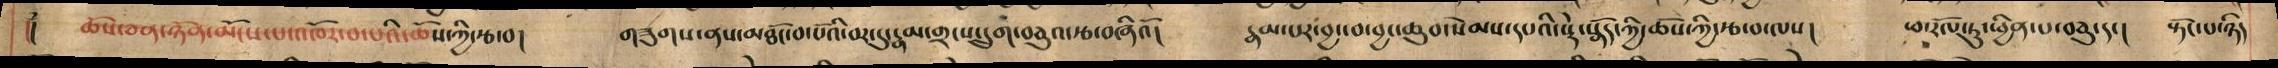།། ཆོས་ཅན་ཉོན་མོངས་པ་འཁོར་བ་པའི་ཆོས་ཀྱི་རྩ་བ། གཟུགས་ནས་མཐོང་བ་པོའི་བར་དུ་རྣམ་གྲངས་དྲུག་བཅུའ་རྩ་བཞིའོ། རྣམ་པར་བྱང་བ་བྱང་ཆུབ་སེམས་དཔའི་སྡེ་སྣོད་ཀྱི་ཆོས་ཀྱི་རྩ་བ་ལས། ཕ་རོལ་ཏུ་ཕྱིན་པ་བཅུ་དང། སྟོང་པ་ཉིད
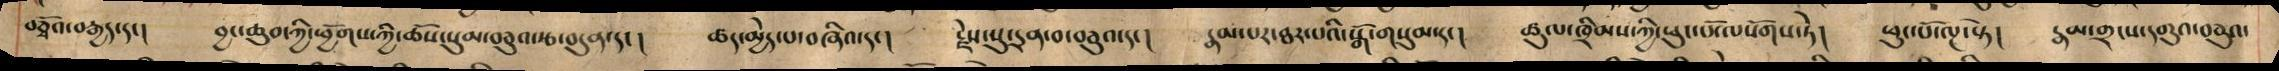བཅྭོའ་བརྒྱད་དང། བྱང་ཆུབ་ཀྱི་ཕྱོགས་ཀྱི་ཆོས་སུམ་བཅུའ་རྩ་བདུན་དང། ཚད་མྱེད་པ་བཞིའ་དང། རྗེ་སུ་དྲན་བ་ཅུའ་དང། རྣམ་པར་ཐར་པའི་སྒོ་གསུམ་དང། ཚུལ་ཁྲིམས་ཀྱི་ཕུང་པོ་ལསོགས་ཏེ། ཕུང་པོ་ལྔ་སྟེ། རྣམ་གྲངས་དགུའ་བཅུའ་
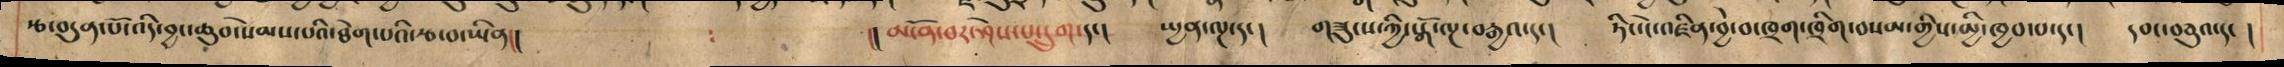རྩ་བདུན་པོ་འདི་བྱང་ཆུབ་སེམས་པའི་ཐེགས་པའི་རྩ་བ་ཡིན།། །།མངོན་པར་ཤེས་པ་དྲུག་དང། སྤྱན་ལྔ་དང། གཟུངས་ཀྱི་སྒོ་ལྔ་བརྒྱའ་དང། ཏིང་ངེ་འཛིན་བྱེ་བ་ཁྲག་ཁྲིག་བསམ་གྱིས་མྱི་ཁྱབ་པ་དང། དབང་བཅུའ་དང །
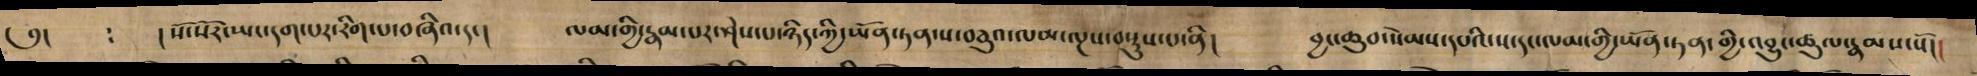༅། : ། སོ་སོར་ཡང་དག་པར་རིག་པ་བཞི་དང། ལམ་གྱི་རྣམ་པར་ཤེས་པ་ཉིད་ཀྱི་ཡོན་ཏན་ས་བཅུའ་ལམ་ལྔས་བསྡུས་པ་ནི། བྱང་ཆུབ་སེམས་དཔའི་ས་དང་ལམ་གྱི་ཡོན་ཏན་གྱི་འབྱུང་ཚུལ་རྣམས་སོ།།
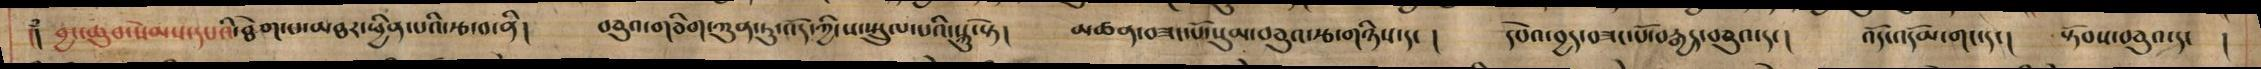།། བྱང་ཆུབ་སེམས་དཔའི་ཐེག་པ་མཐར་ཕྱིན་པའི་རྩ་བ་ནི། བཅུའ་གཅིག་ཀུན་ཏུ་འོད་ཀྱི་ས་སྤྲུལ་པའི་སྐུ་སྟེ། མཚན་བཟང་པོ་སུམ་བཅུའ་རྩ་གཉིས་དང། དཔེའ་བྱད་བཟང་པོ་བརྒྱད་བཅུའ་དང། འོད་འདོམ་གང་དང། སྟོབས་བཅུའ་དང །
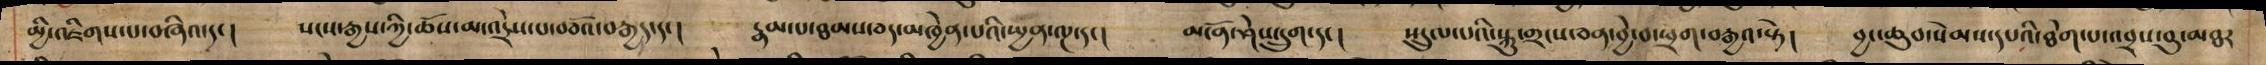མྱི་འཇིགས་པ་བཞིའ་དང། སངས་རྒྱས་ཀྱི་ཆོས་མ་འདྲེས་པ་བཅོའ་བརྒྱད་དང། རྣམ་པ་ཐམས་ཅད་མཁྱེན་པའི་སྤྱན་ལྔ་དང། མངོན་ཤེས་དྲུག་དང། སྤྲུལ་པའི་སྐུ་གྲངས་ཅན་བྱེ་བ་ཕྲག་བརྒྱའ་སྟེ། བྱང་ཆུབ་སེམས་དཔའི་ཐེག་པ་འབྲས་བུ་མཐར
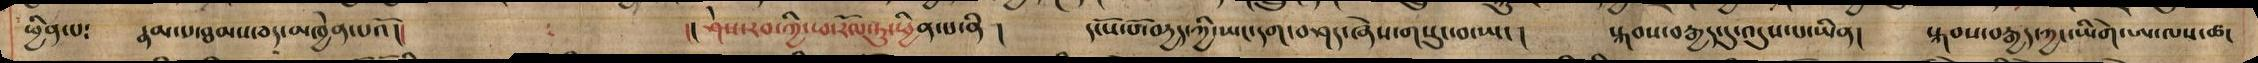ཕྱིན་པ: རྣམ་པ་ཐམས་ཅད་མཁྱེན་པའོ།། །།ཤེས་རབ་ཀྱི་ཕ་རོལ་ཏུ་ཕྱིན་པ་ནི ། དངོས་པོ་བརྱད་ཀྱི་ཡང་དག་བཤད་ཞེས་གསུང་བ་ཡང། སྐབས་བརྒྱད་དུ་འདུས་པ་ཡིན། སྐབས་བརྒྱད་ཀྱང་ཡིགེ་ཨ་ལས་ཚ་
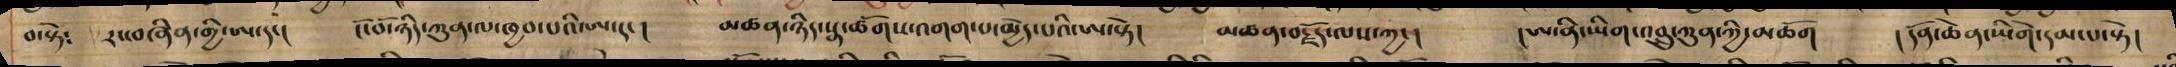བ་སྟེ: རང་བཞིན་གྱི་ཨ་དང། ངོ་བོ་ཉིད་ཀུན་ལ་ཁྱབ་པའི་ཨ་དང། མཚན་ཉིད་སྣ་ཚོགས་འགག་པ་མྱེད་པའི་ཨ་སྟེ། མཚན་བརྗོད་ལས་ཀྱང། །ཨ་ནི་ཡིག་འབྲུ་ཀུན་ཀྱི་མཆོག །དོན་ཆེན་ཡིགེ་དམ་པ་སྟེ།
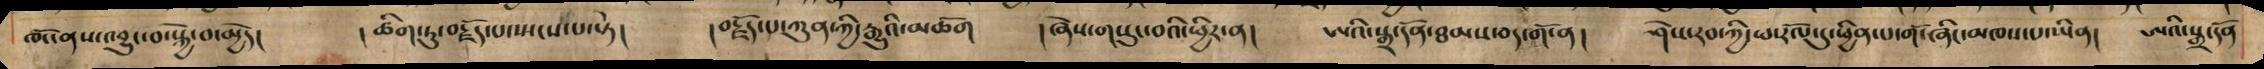ཁོང་ནས་འབྱུང་བ་སྐྱེ་བ་མྱེད། ། ཚིག་ཏུ་བརྗོད་པ་ཡངས་པ་སྟེ། །བརྗོད་པ་ཀུན་རྒྱུའི་མཆོག །ཞེས་གསུང་བའི་ཕྱིར་ན། ཨའི་སྒྲ་དོན་ཐམས་ཅད་གོ་ན། ཤེས་རབ་ཀྱི་ཕ་རོལ་དུ་ཕྱིན་པ་གོ་ཞིང་མཁས་པ་ཡིན། ཨའི་སྒྲ་དོན
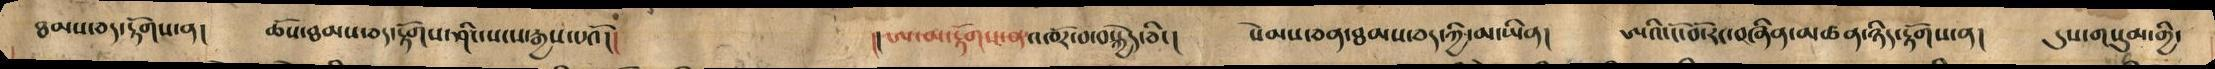ཐམས་ཅད་རྟོགས་ན། ཆོས་ཐམས་ཅད་རྟོགས་ཤིང་སངས་རྒྱས་པའོ།། །།ཨ་མ་རྟོགས་ན་འཁོར་བ་བསྐྱེད་ཅིང་། སེམས་ཅན་ཐམས་ཅད་ཀྱི་མ་ཡིན། ཨའི་ངོ་བོ་རང་བཞིན་མཚན་ཉིད་རྟོགས་ན། དུས་གསུམ་གྱི་
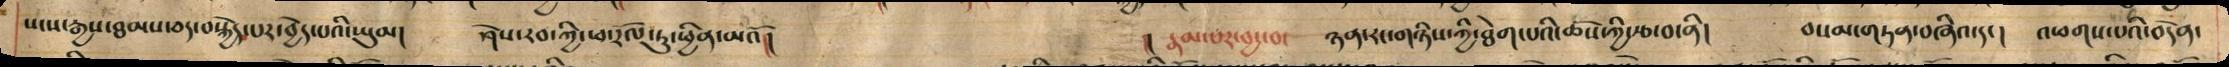སངས་རྒྱས་ཐམས་ཅད་བསྐྱེད་པར་བྱེད་པའི་ཡུམ། ཤེས་རབ་ཀྱི་ཕ་རོལ་ཏུ་ཕྱིན་མའོ།། །། རྣམ་པར་བྱ་བ་ ཉན་རང་གཉིས་ཀྱི་ཐེག་པའི་ཆོས་ཀྱི་རྩ་བ་ནི། བསམ་གཏན་བཞིའ་དང། འཕགས་པའི་བདེན་
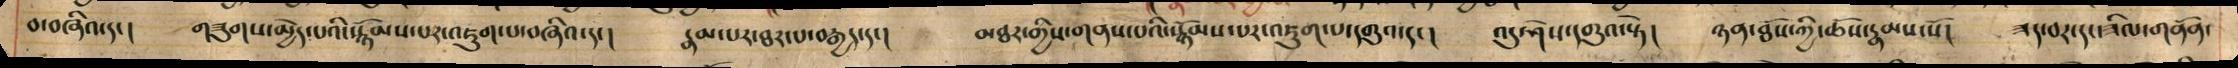བ་བཞིའ་དང། གཟུགས་མྱེད་པའི་སྙོམས་པར་འཇུག་པ་བཞིའ་དང། རྣམ་པར་ཐར་པ་བརྒྱད་དང། མཐར་གྱིས་གནས་པའི་སྙོམས་པར་འཇུག་པ་དགུའ་དང། འདུ་ཤེས་དགུའ་སྟེ། ཉན་ཐོས་ཀྱི་ཆོས་རྣམས་སོ། ཟད་བར་དང་ཟིལ་གནོན་
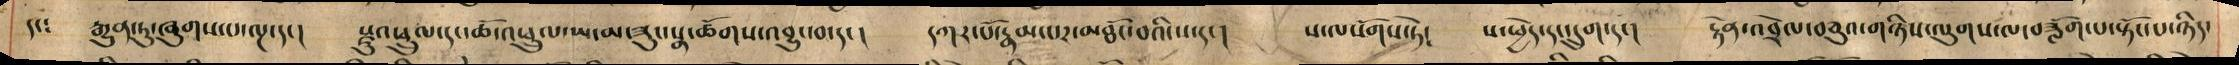དང: རྒྱུན་ཏུ་ཞུགས་པ་ལྔ་དང།  སྫུ་འཕྲུལ་དང་ཆོ་འཕྲུལ་ཡ་མ་ཟུང་སྣ་ཚོགས་འབྱུང་བ་དང། དཀར་པོ་རྣམ་པར་མཐོང་བའི་ས་དང། ས་ལསོགས་ཏེ། ས་ཕྱེད་དང་དྲུག་དང། རྟེན་འབྲེལ་བཅུའ་གཉིས་ལུགས་ལ་བཟློག་པ་སྟོང་པ་ཉིད་
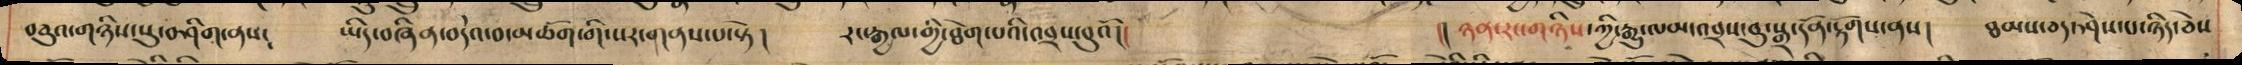བཅུའ་གཉིས་སུ་བཤིག་ནས། ཡིད་བཞིན་བདེའ་བ་མཆོག་གི་སར་གནས་པ་སྟེ། རང་རྒྱལ་གྱི་ཐེག་པའི་འབྲས་བུའོ།། །། ཉན་རང་གཉིས་ཀྱི་རྒྱུ་ལམ་འབྲས་བུ་སྒྲ་དོན་རྟོགས་ནས། ཐམས་ཅད་ཤེས་པ་ཉིད་ཅེས
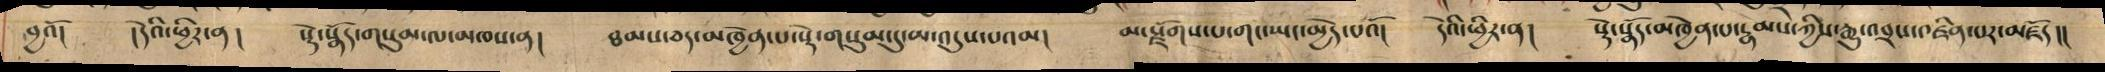བྱའོ། །དེའི་ཕྱིར་ན། སྡེ་སྣོད་གསུམ་ལ་མཁས་ན། ཐམས་ཅད་མཁྱེན་པ་སྡེ་གསུམ་དུ་མ་འདུས་པའམ། མ་སྫོགས་པ་གང་ཡང་མྱེད་པའོ། དེའི་ཕྱིར་ན། སྡེ་སྣོད་མཁྱེན་པ་རྣམས་ཀྱིས་རྒྱུ་འབྲས་འཛིན་པར་མཛོད།།
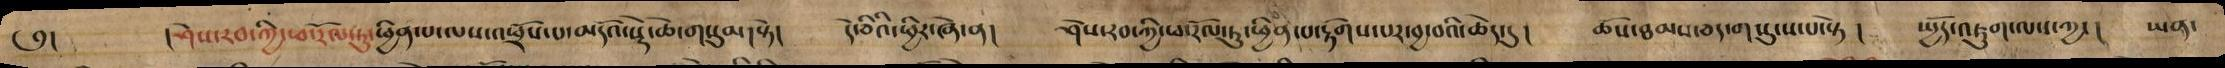༅། །ཤེས་རབ་ཀྱི་ཕ་རོལ་ཏུ་ཕྱིན་པ་ལས་འཕྲོས་པ་མདོའ་སྡེ་ཆེ་གསུམ་སྟེ། དེ་ཅིའི་ཕྱིར་ཞེ་ན། ཤེས་རབ་ཀྱི་ཕ་རོལ་ཏུ་ཕྱིན་པ་རྟོགས་པར་བྱ་བའི་ཆེད་དུ། ཆོས་ཐམས་ཅད་གསུངས་པ་སྟེ ། སྤྱོད་འཇུག་ལས་ཀྱང ། ཡན་
